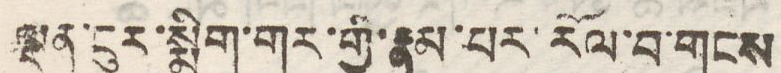ལྡན་ངུར་སྨྲིག་གར་གྱི་རྣམ་པར་རོལ་བ་གངས
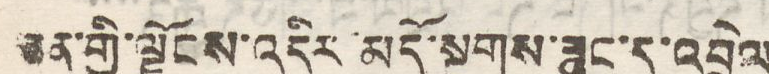ཅན་གྱི་ལྗོངས་འདིར་མདོ་སྔགས་ཟུང་དུ་འབྲེལ
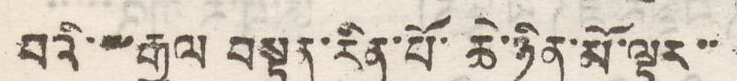བའི་༸རྒྱལ བསྟན་རིན་པོ་ཆེ་ཉིན་མོ་ལྟར་་
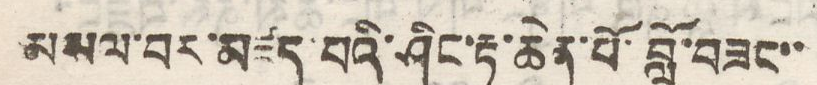མསལ་བར་མཛད་པའི་ཤིང་རྟ་ཆེན་པོ་བློ་བཟང་་
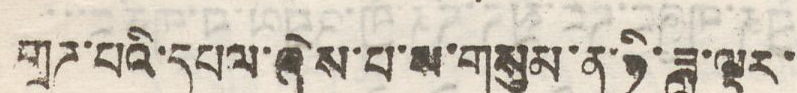གྲཌ་པའི་དཔལ་ཞེས་པ་ས་གསུམ་ན་ཉི་ཟླ་ལྟར་
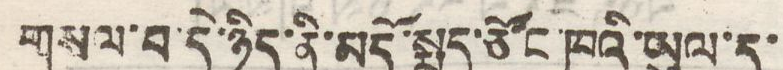གསལ་བ་དེ་ཉིད་ནི་མདོ་སྨད་ཙོང་ཁའི་ཡུལ་དུ་
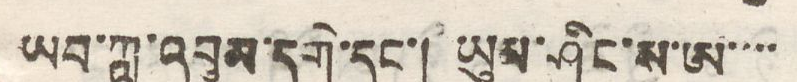ཡབ་ཀླུ་འབུམ་དགེ་དང་། ཡུམ་ཤིང་ས་ཨ་་་་
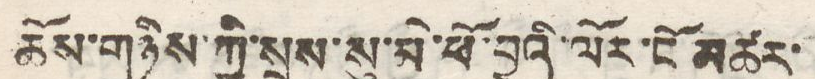ཆོས་གཉིས་ཀྱི་སྲས་སུ་མེ་ཕོ་བྱའི་ལོར་ངོ མཚར་
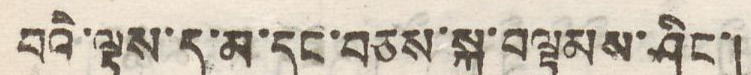བའི་ལྟས་དུ་མ་དང་བཅས་སྐུ་བལྟམས་ཤིང་།
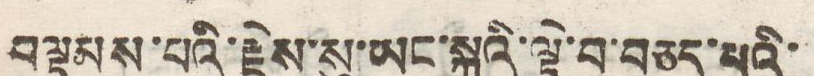བལྟམས་པའི་རྗེས་སུ་ཡང་སྐུའི་ལྟེ་བ་བཅད་པའི་
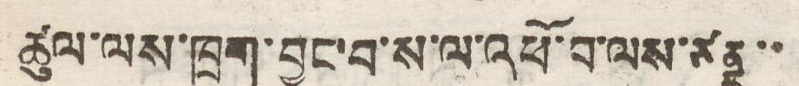ཚུལ་ལས་ཁྲག་བྱུང་བ་ས་ལ་འཕོ་བ་ལས་ཙནྡ་་
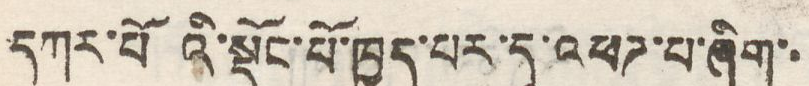དཀར་པོའི་སྡོང་པོ་ཁྱད་པར་དུ་འཕཌ་པ་ཞིག་་
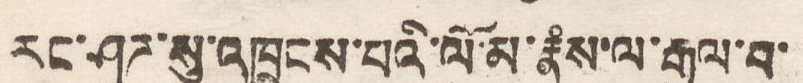རང་ཤུཌ་སུ་འཁྲུངས་པའི་ལོ་མ་རྣཾས་ལ་རྒྱལ་བ་
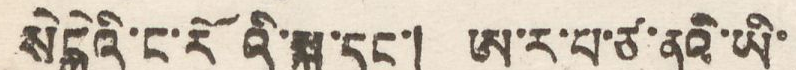སེངྒེའི་ང་རོའི་སྐུ་དང་། ཨ་ར་པ་ཙ་ནའི་ཡི་
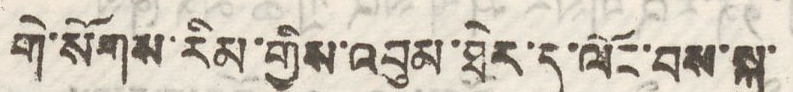གེ་སོགས་རིམ་གྱིས་འབུལ་ཐེར་དུ་ལོང་བས་སྐུ་
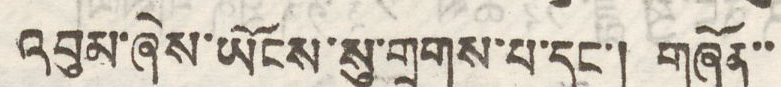འབུམ་ཞེས་ཡོངས་སུ་གྲགས་པ་དང་། གཞོན་་
